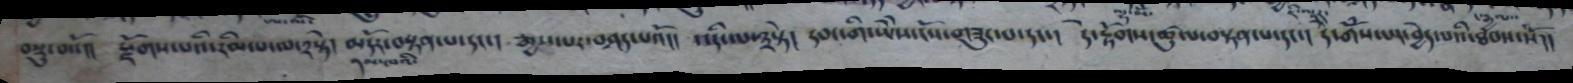བསྡུ་བའོ།། རྫོགས་པའི་རིམ་པ་ལ་༢སྟེ།  མདོར་བསྟན་པ་དང་།  རྒྱས་པར་བཤད་པའོ།།  འདི་ལ་༣སྟེ།  དབང་གི་ཡེེས་ངོས་གཟུང་བ་དང་།  དེ་རྟོགས་ཚུལ་བསྟན་པ་དང་།  དེ་གོཾས་པར་བྱེད་པའི་ཐབས་སོ།།
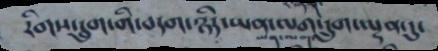རིགས་དྲུག་གི་བདག་ཉིད་ཡན་ལག་དྲུག་ལྡན་དུ་
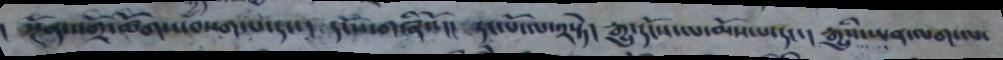སྔོན་འགྲོ་ཚོགས་བསག་པ་དང་། དངོས་གཞིའོ། དང་པོ་ལ་༢སྟེ། རྒྱུ་དངོས་ལ་མོས་པ་དང་། རྒྱུའི་ཡན་ལག་ལ་
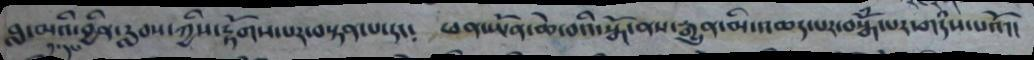བླ་མའི་བྱིན་རླབས་ཀྱིས་རྟོགས་པར་བསྟན་པ་དང༴  ཕན་ཡོན་ཆེ་བའི་སྒོ་ནས་རྒྱུན་མི་འཆད་པར་བསྒོཾ་པར་གདཾས་པའོ།།
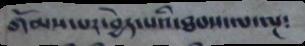གོམས་པར་བྱེད་པའི་ཐབས་ལ་ལྔ༴
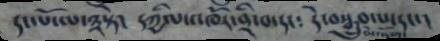དང་པོ་ལ་༣སྟེ།   དཀྱིལ་འཁོར་བྲི་བ་དང༴   དེ་བསྒྲུབ་པ་དང་།
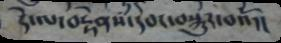དེ་ལ་བརྟེནས་དབང་བསྐུར་བའོ།།
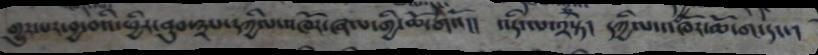གྱུར་པར་བྱ་བའི་ཕྱིར་ནུབ་༣པ་དཀྱིལ་འཁོར་ཞལ་གྱི་ཆོ་གའོ།།   འདི་ལ་༢སྟེ།   དཀྱིལ་འཁོར་ཆོ་ག་དང་།
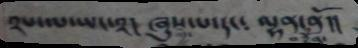༢པ་ལ་ཡང་༢།  ཞུས་པ་དང༴  ལྷན་ནོ།།
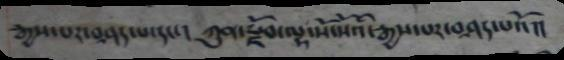རྒྱས་པར་བཤད་པ་དང་། ཀུན་སྫོབ་ལྷ་སོ་སོའི་རྒྱས་པར་བཤད་པའོ།།
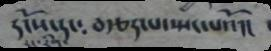དངོས་དང༴   བརྩད་པ་སྤང་པའོ།།
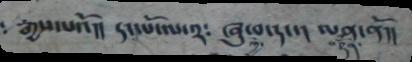རྒྱས་པའོ།།   དང་པོ་ལ་༢༴   ཞུ་བ་དང་།  ལན་ནོ།།
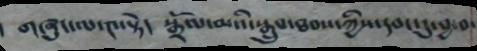གཞུང་ལ་༤་སྟེ། སྒྲོལ་མའི་སྒྲུབ་ཐབས་ཀྱིས་དབང་དུ་བྱ་བ་
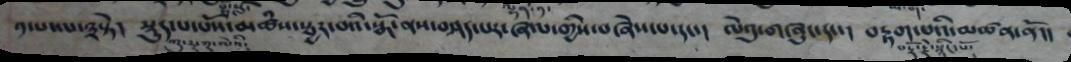༡་པ་ལ་༣སྟེ།  སྡུད་པ་པོས་མཚཾས་སྦྱར་བའི་སྒོ་ནས་བཤད་པར་ཞལ་གྱིས་བཞེས་པ་དང་།   ལེའུ་གཞུང་དང་།  བརྟག་པའི་མཚན་ནོ།།
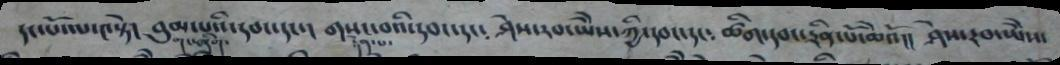དང་པོ་ལ་༤སྟེ།  བུམ་པའི་དབང་དང་།  གསང་བའི་དབང་དང༴   ཤེས་རབ་ཡེེས་ཀྱི་དབང་དང༴  ཚིག་དབང་རིན་པོ་ཆེའོ།།  ཤེས་རབ་ཡེེས་
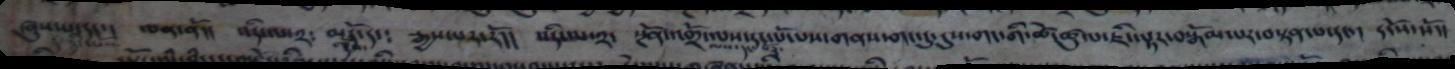ཞུས་པ་དང་།   ལན་ནོ།།  འདི་ལ་༢༴   མདོ་དང༴  རྒྱས་པར་རོ།།  འདི་ལ་༢་   སྔོན་འགྲོ་ལས་དང་པོ་པས་གནས་གང་དུ་དུས་གང་གི་ཚེ་ཚུལ་ཇི་ལྟར་བསྒོམ་པར་བསྟན་པ་དང་།  དངོས་སོ།།
